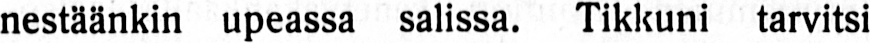nestäänkin upeassa salissa. Tikkuni tarvitsi
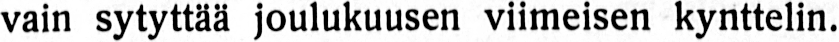vain sytyttää joulukuusen viimeisen kynttelin.
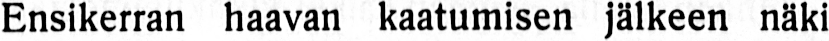Ensikerran haavan kaatumisen jälkeen näki
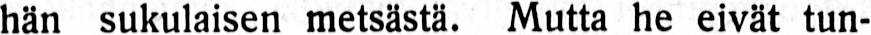hän sukulaisen metsästä. Mutta he eivät tun-
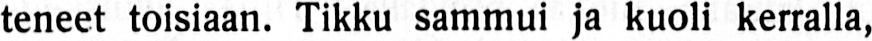teneet toisiaan. Tikku sammui ja kuoli kerralla,
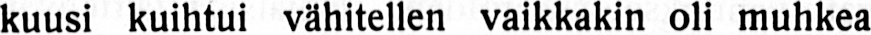kuusi kuihtui vähitellen vaikkakin oli muhkea
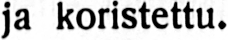ja koristettu.
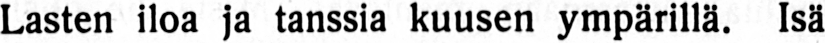Lasten iloa ja tanssia kuusen ympärillä. Isä
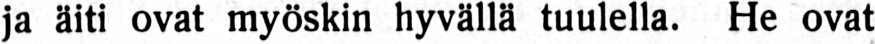ja äiti ovat myöskin hyvällä tuulella. He ovat
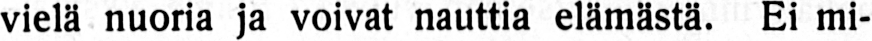vielä nuoria ja voivat nauttia elämästä. Ei mi-
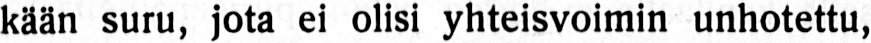kään suru, jota ei olisi yhteisvoimin unhotettu,
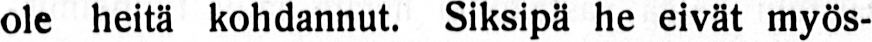ole heitä kohdannut. Siksipä he eivät myös-
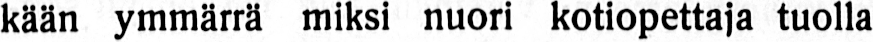kään ymmärrä miksi nuori kotiopettaja tuolla
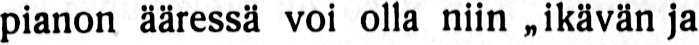pianon ääressä voi olla niin „ikävän ja nyrpeän"
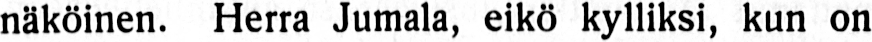näköinen. Herra Jumala, eikö kylliksi, kun on
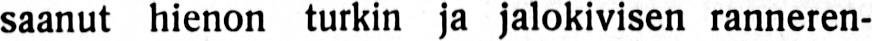saanut hienon turkin ja jalokivisen ranneren-
